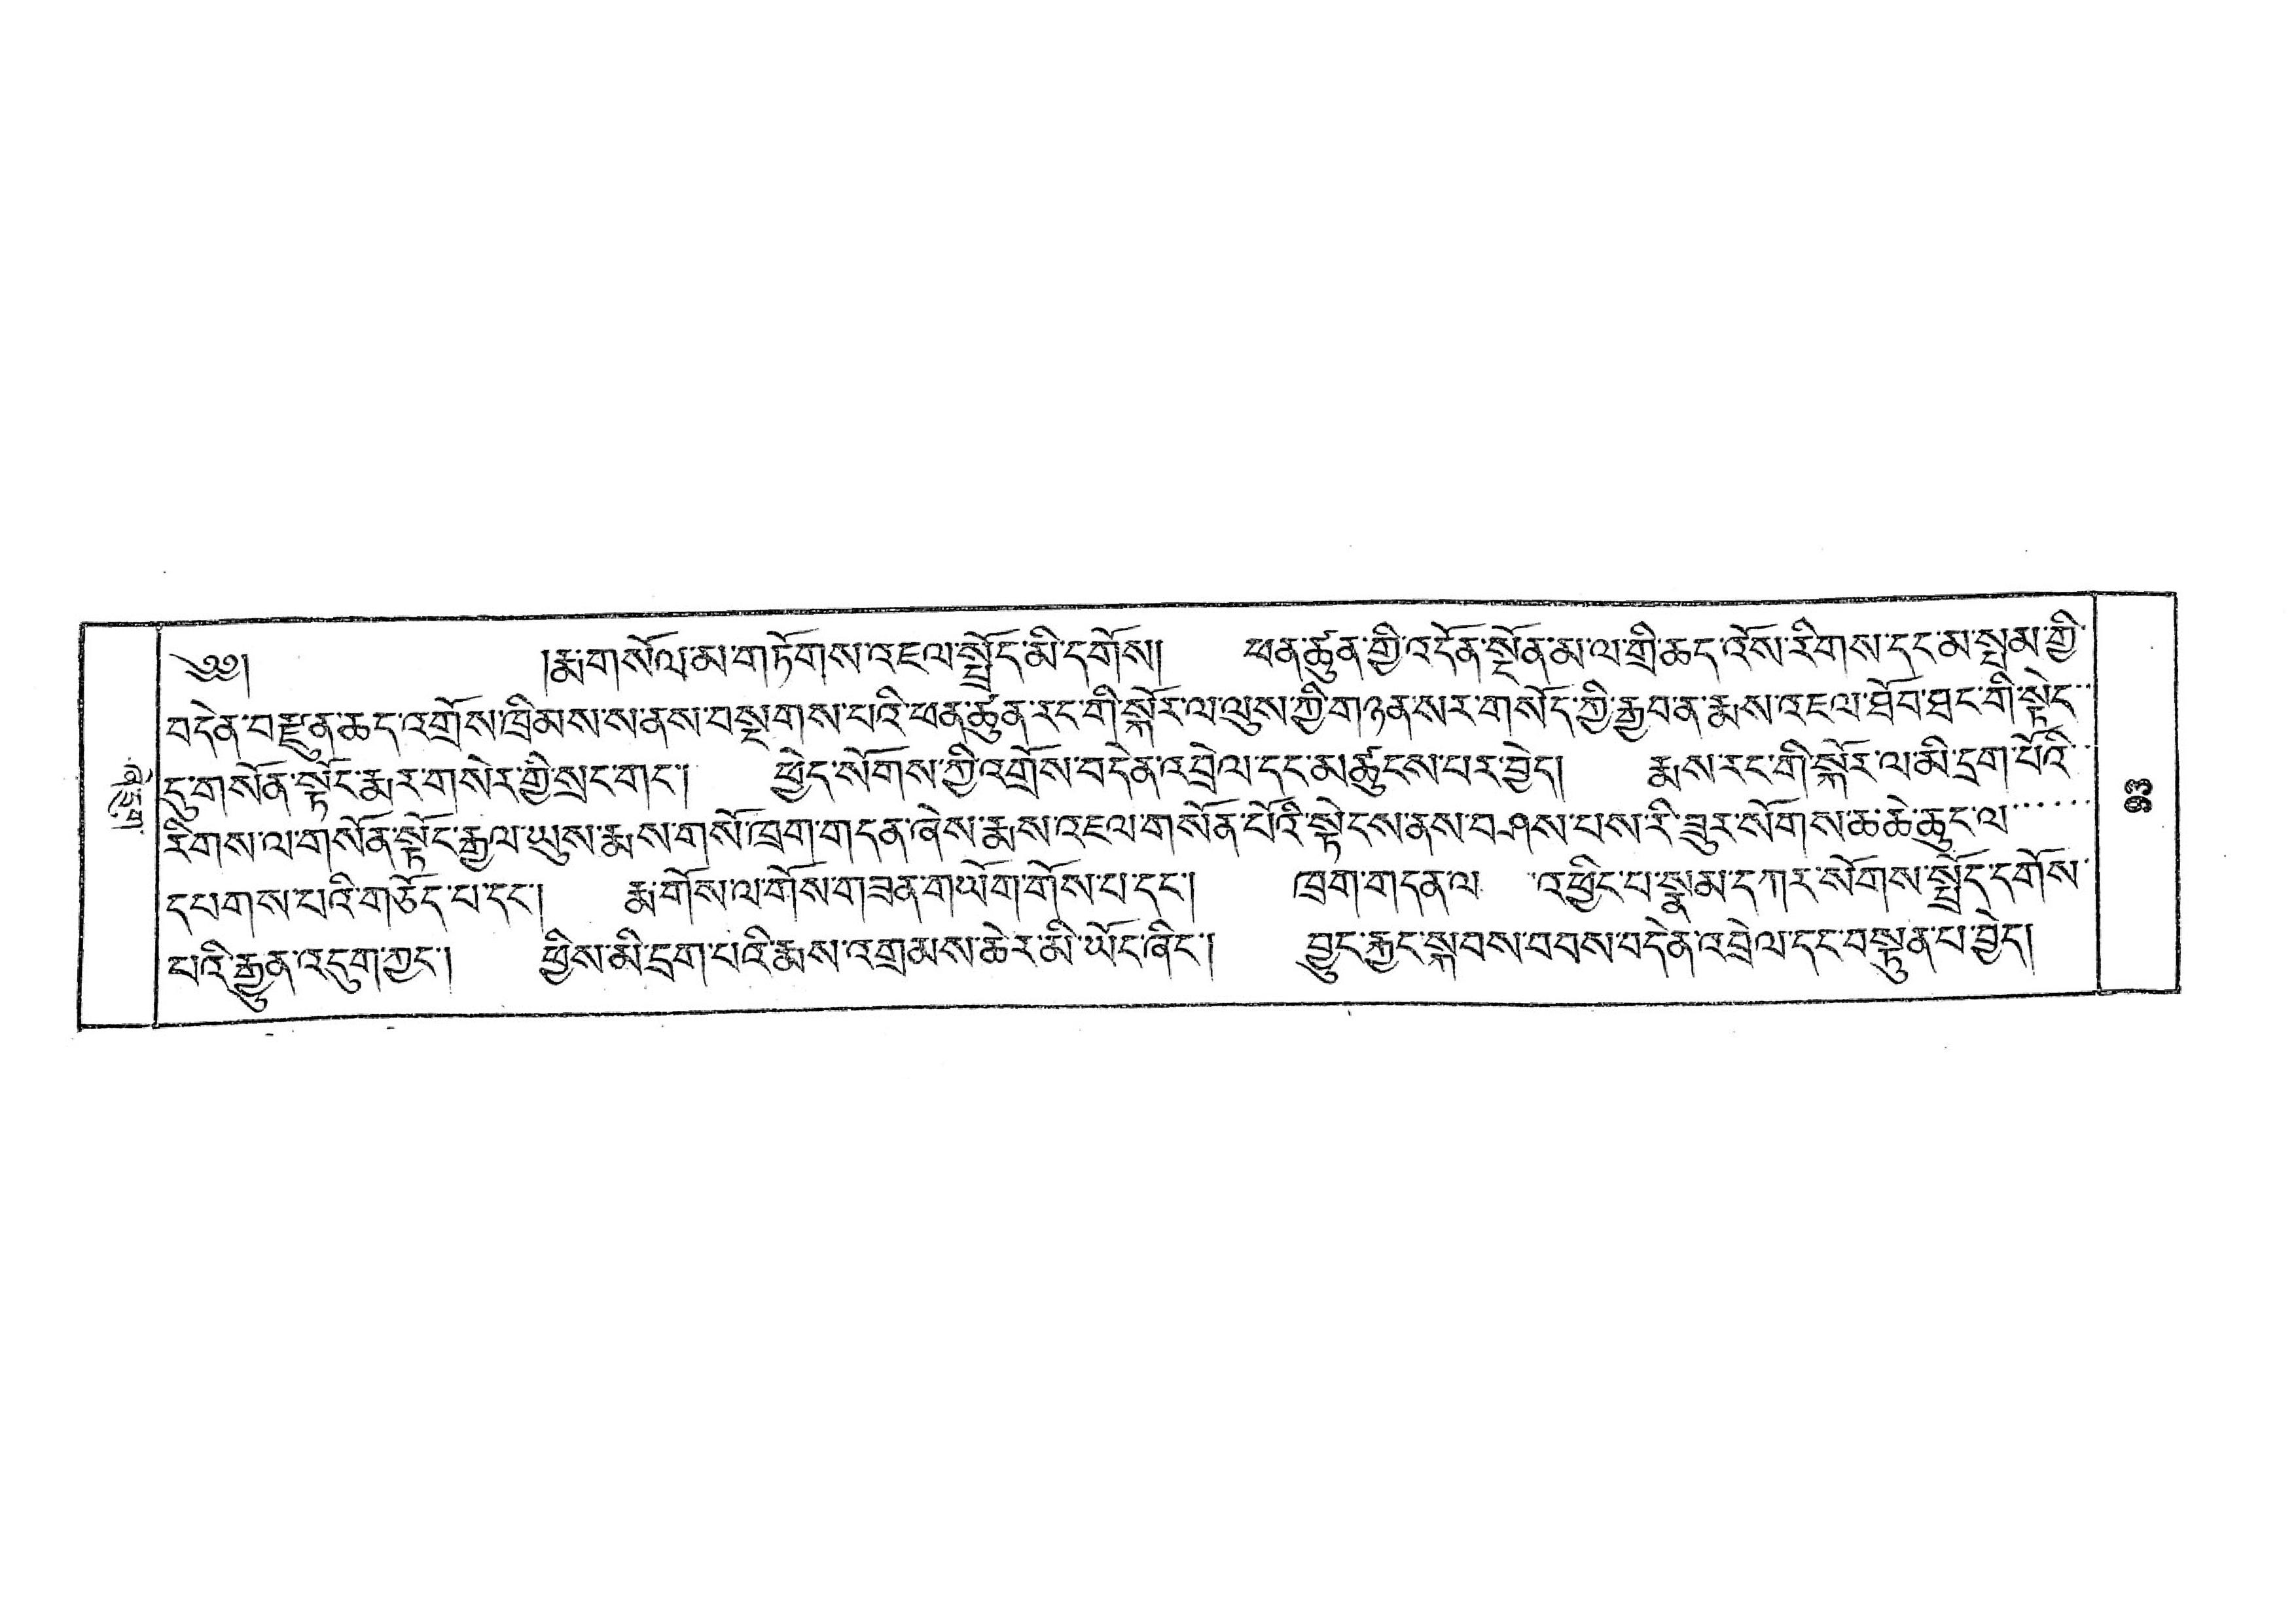ཞེ་དྲུག་
༄༅།  །རྨ་གསོལ་མ་གཏོགས་འཇལ་སྤྲོད་མི་དགོས། ཕན་ཚུན་གྱི་འདོན་སྔོན་མ་ལ་གྲི་ཆད་འོས་རིགས་དང་མ་སྤམ་གྱི་
བདེན་བརྫུན་ཆད་འགྲོས་སྲིམ་ས་ནམས་བསྔགས་པའི་ཕན་ཚུན་རང་གི་སྐོར་ལུས་ཀྱི་གཉན་སར་གསོད་ཀྱི་རྒྱབ་ན་རྨས་འཇལ་ཐོབ་ཐང་གི་སྟེང་་
དུ་གསོན་སྟོང་རྨར་གསེར་གྱི་སྲང་གང་། ཕྱེད་སོགས་ཀྱི་འགྲོས་བདེན་འབྲེལ་དང་མཚུངས་པར་བྱེད། རྨས་རང་གི་སྐོར་ལ་མི་དྲག་པོའི་་
རིགས་ལ་གསོན་སྟོང་རྒྱལ་ཡུས་རྨས་གསོ་ཁྲག་གདན་ཞེས་རྨས་འཇལ་གསོན་པོའི་སྟེངས་ནས་བཤས་པས་རི་ཟུར་སོགས་ཆ་ཆེ་ཆུང་ལ་་་་་་
དཔགས་པའི་གཅོད་པ་དང་། རྨ་གོས་ལ་གོས་གཟན་གཡོག་གོས་པ་དང་། ཁྲག་གདན་ལ ་འཕྱིང་པ་སྣམ་དཀར་སོགས་སྤྲོད་དགོས་
པའི་རྒྱུན་འདུག་ཀྱང་། ཕྱིས་མི་དྲག་པའི་རྨས་འགྲམས་ཆེར་མི་ཡོང་ཞིང་། བྱུང་རྐྱང་སྐབས་བབས་བདེན་འབྲེལ་དང་བསྟུན་པ་བྱེད།
